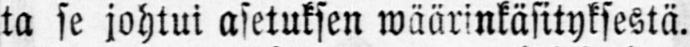ta se johtui asetuksen wäärinkäsityksestä.
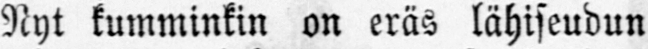Nyt kumminkin on eräs lähiseudun
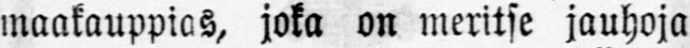maakauppias, joka on meritse jauhoja
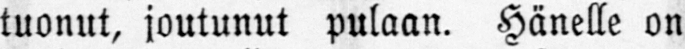tuonut, joutunut pulaan. Hänelle on
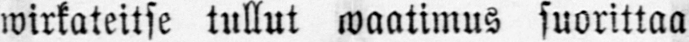wirkateitse tullut waatimus suorittaa
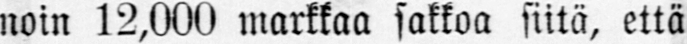noin 12,000 markkaa sakkoa siitä, että
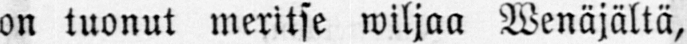on tuonut meritse wiljaa Wenäjältä,
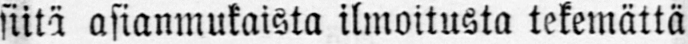siitä asianmukaista ilmoitusta tekemättä
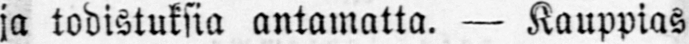ja todistuksia antamatta. — Kauppias
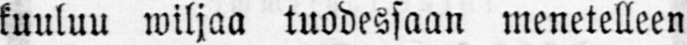kuuluu wiljaa tuodessaan menetelleen
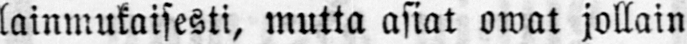lainmukaisesti, mutta asiat owat jollain
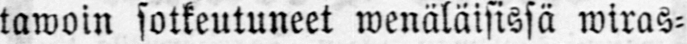tawoin sotkeutuneet wenäläisissä wiras-
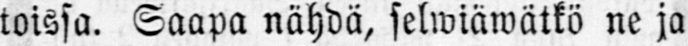toissa. Saapa nähdä, selwiäwätkö ne ja
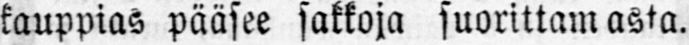kauppias pääsee sakkoja suorittamasta.
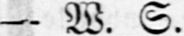— W. S.
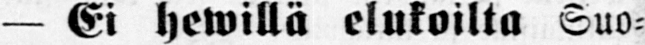— Ei hewillä elukoilta Suo-
